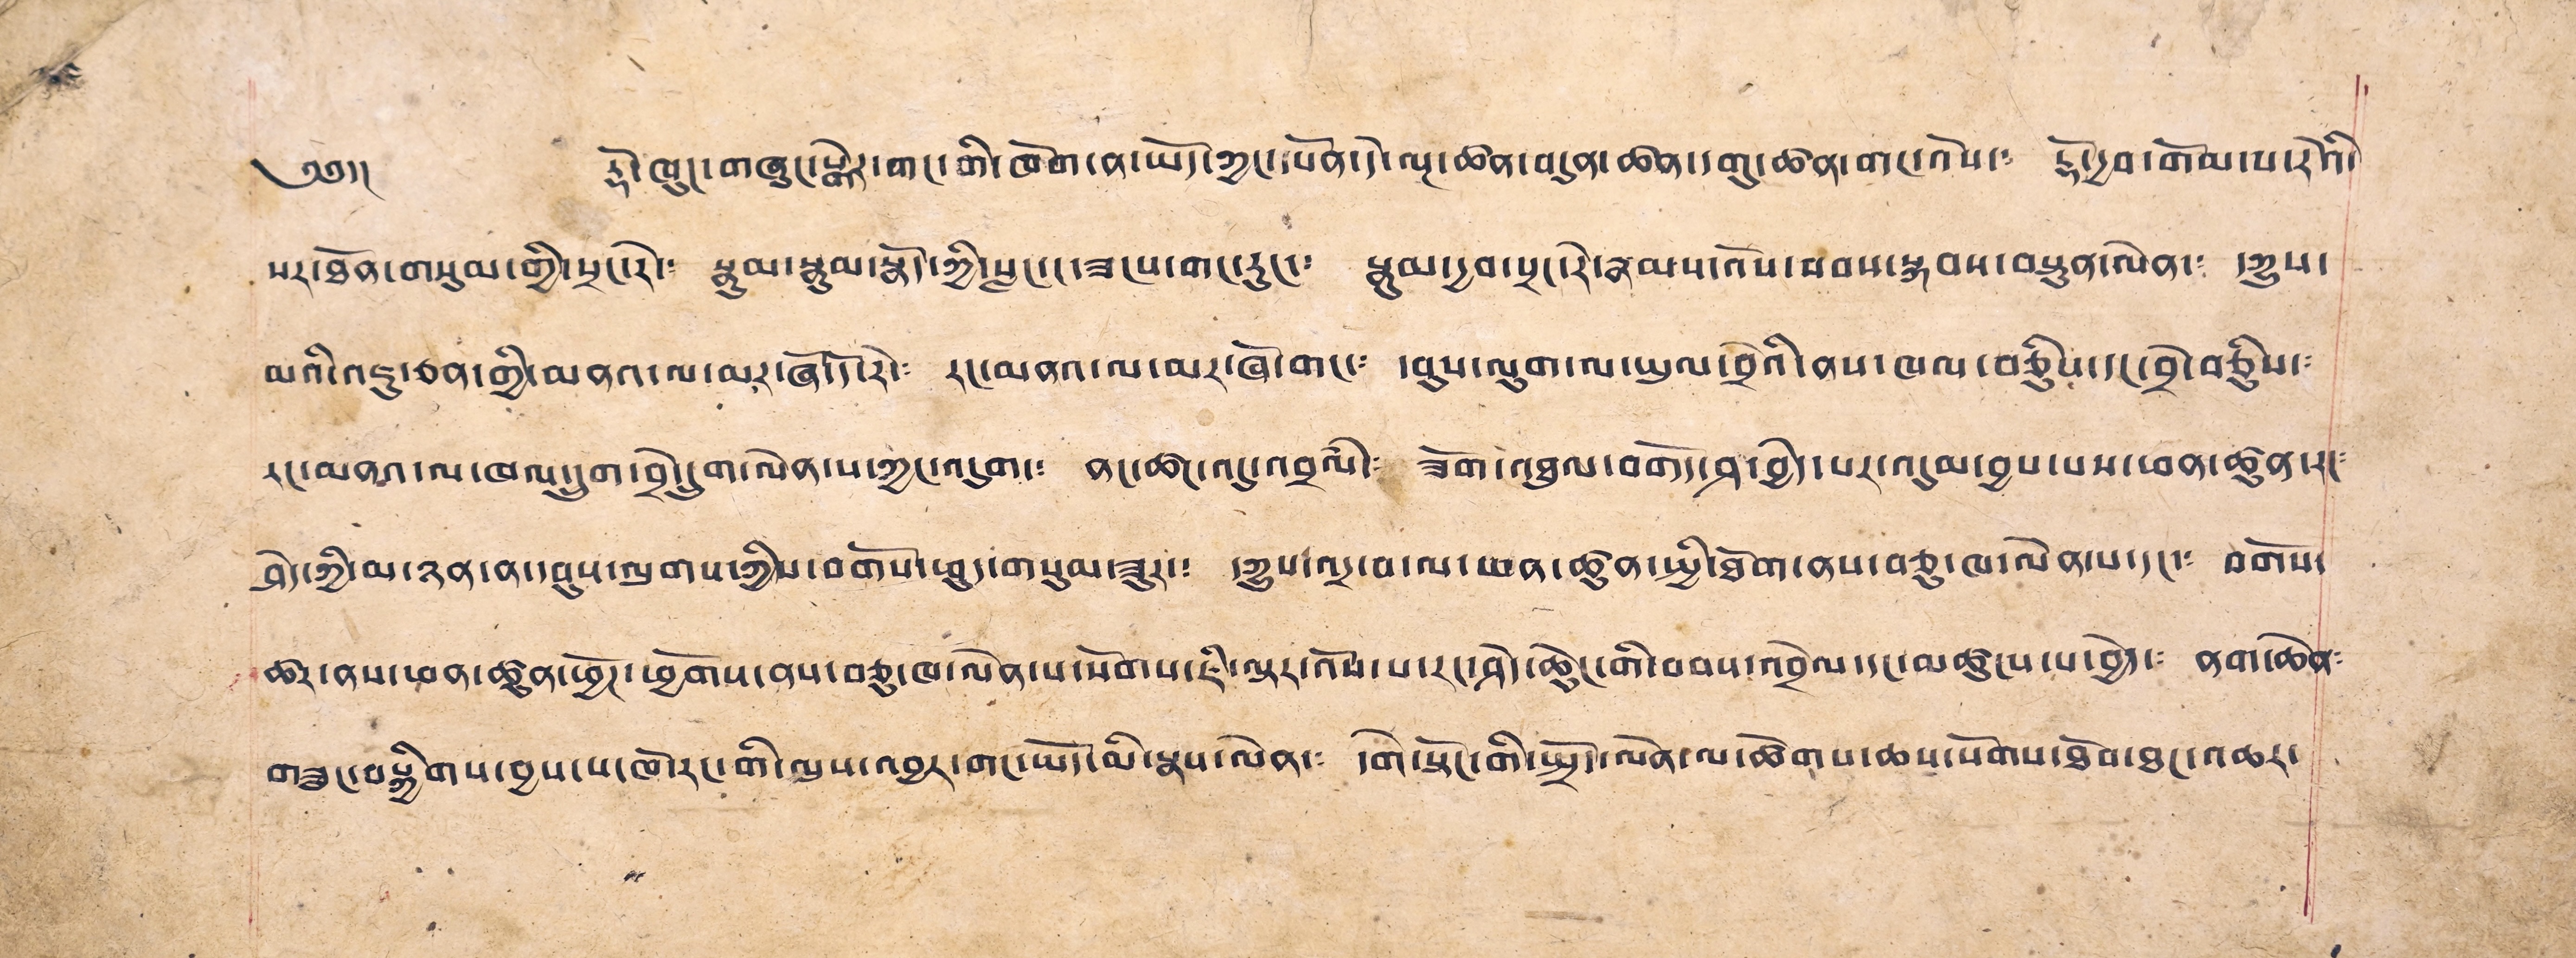༄༅།། རྡོ་ཁུང་གཞུང་སྒེར་གང་གི་ཁོག་ན་ཡོད་ཀྱང་དཔོན་དེ་ལྔ་ཚན་བདུན་ཚན་དགུ་ཚན་གང་འོས་༴ རྡོ་དྱབ་གོམ་པ་རེའི་
པར་ཐོན་གསུམ་གྱི་སྲང་རེ་༴ སྣུམ་སྣུམ་སྣོད་ཀྱི་སླང་ང་ཟངས་གང་རུང་༴ སྣུམ་དྱབ་སྲང་རེ་རྣམས་འོས་བབས་སྐབས་བསྟུན་ལེན་༴ དཀྱུས་
མའི་འཇུ་ཅན་གྱི་མནའ་ལ་མར་ཞོ་དོ་རེ་༴ རང་མནའ་ལ་མར་ཞོ་གང་༴ དབུས་ལུག་ལ་ཡུལ་བྲེའི་ནས་ཁལ་བཅིུས་དང་བྲེ་བཅིུས༴
རང་མནའ་ལ་ཁལ་དྲུག་བྲེ་དྲུག་ལེན་པ་ཀྱང་འདུག་༴ ནང་ཚང་འདུ་འབྲལཾ་༴ ཟོག་འཐུལ་བགོད་ཤ་བྱེད་པར་འདུམ་བྱས་པས་ཕན་ཚུན་རང༴
ཤེད་ཀྱི་མ་ཉན་ན་དབུས་ལུགས་ཀྱིས་བགོས་ཕུད་གསུམ་ཟུར་༴ དཀྱུས་འདྲ་བ་ལ་ཕན་ཚུན་སྤྱི་ཐོག་ནས་བཅུ་ཁ་ལེན་པ་དང་༴ བགོས་
ཚར་ནས་ཕན་ཚུན་ཕྱོཊ་ཕྱོགས་ནས་བཅུ་ཁ་ལེན་པ་སོགས་ཇི་ལྟར་འོས་པ་རང་ཤེད་ཆེུང་གི་བབས་འབྲེལ་དང་མཚངས་པ་བྱེད་༴ ནག་ཆེན༴
གཟུང་བསྐྱིགས་བྱས་པ་ཁོ་རང་གི་ལུས་འབྱར་གང་ཡོད་མི་སྣས་ལེན་༴ དགེ་སྟོང་གི་སྤྲོད་ལེན་ལ་ཚོགས་ཆས་སོགས་ཐོབ་ཐང་འཆར་
